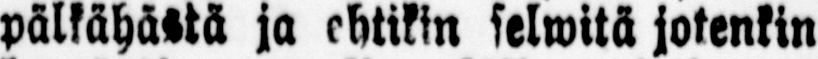pälkähästä ja ehtikin selwitä jotenkin
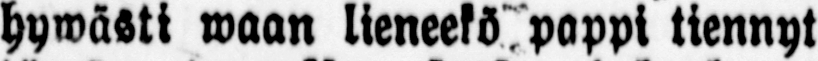hywästi waan lieneekö@pappi tiennyt
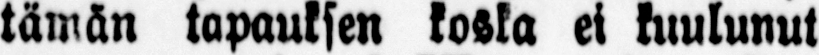tämän tapauksen koska ei kuulunut
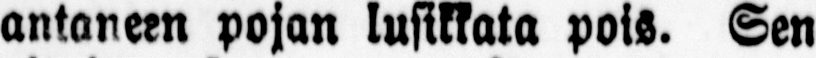antaneen pojan lusikkata pois. Sen
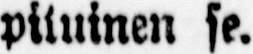pituinen se.
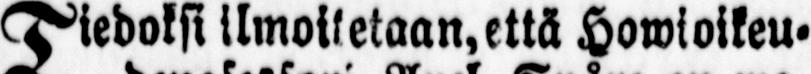Tiedoksi ilmoitetaan,että Howioikeu-
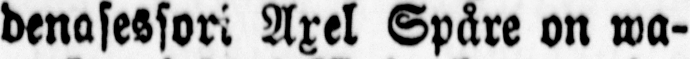denasessori Axel Spåre on wa-
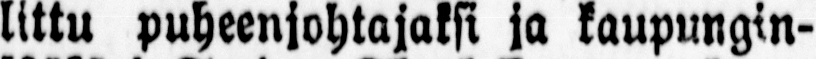littu puheenjohtajaksi ja kaupungin-
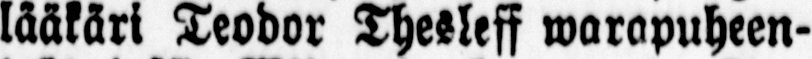lääkäri Teodor Thesleff warapuheen-
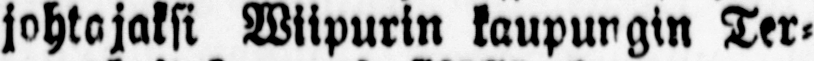johtajaksi Wiipurin kaupungin Ter.
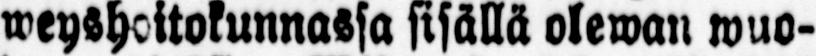weyshoitokunnassa sisällä olewan wuo-
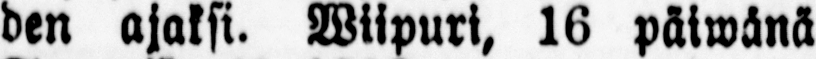den ajaksi. Wiipuri, 16 päiwänä
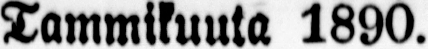Tammikuuta 1890.
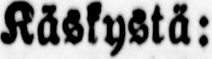Käskystä:
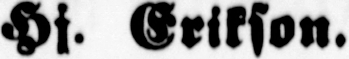Hi. Erikson.
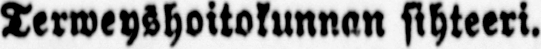Terweyshoitokunnan sihteeri.
